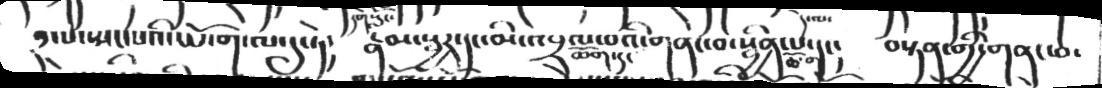༢་པ་སྤང་པའི་ཡོ་ག་ལ་དུ་ཏེ༴  རྣམ་སྦྱར་དང་མི་འབྲལ་བའི་གནང་བ་སྦྱིན་པ་དང༴   བསྟན་གྱི་གནང་བ་
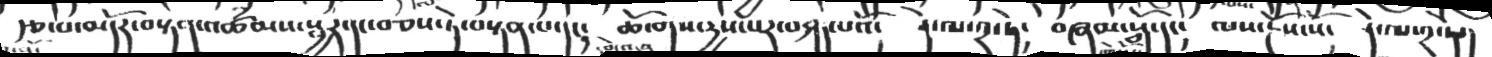རྩ་བ་མདོར་བསྟན་འཚམས་སྦྱར་དང་བཅས་ཏེ་བསྟན་པ་དང་    ཆོ་གས་རྱས་པར་བཤད་པའོ།  དེ་ལ་༢་ཏེ།  བཞམ་སྒོ་དང།  ལས་རྔོས་སོ།  དེ་ལ་༢་ཏེ་།
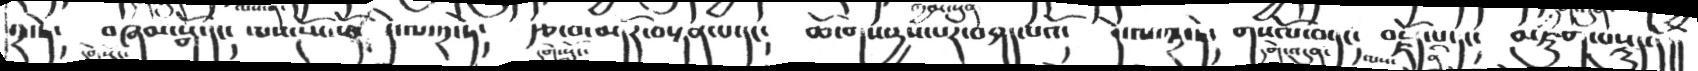༢་ཏེ།   བཞམ་སྒོ་དང།  ལས་རྔོས་སྟེ་  དེ་ལ་༢་ཏེ།  རྩ་བ་མདོར་བསྟན་པ་དང།  ཆོ་གས་རྱས་པར་བཤད་པའོ།  དེ་ལ་༣་ཏེ།   གསོལ་བ་དང།  བརྗོད་པ་དང།  མཇུག་བསྡུད་དོ།།
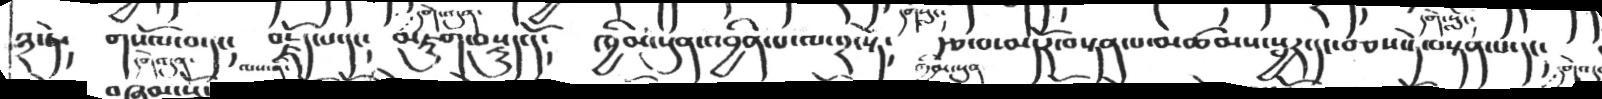༣་ཏེ༴  གསོལ་བ་དང༴  བརྗོད་པ་དང༴  མཇུག་བསྡུད་དོ༴  ཁྱིམ་སུན་འབྱིན་པ་ལ་༢་སྟེ༴  རྩ་བ་མདོར་བསྟན་པ་མཚམས་སྦྱར་དང་བཅས་ཏེ་བསྟན་པ་དང༴
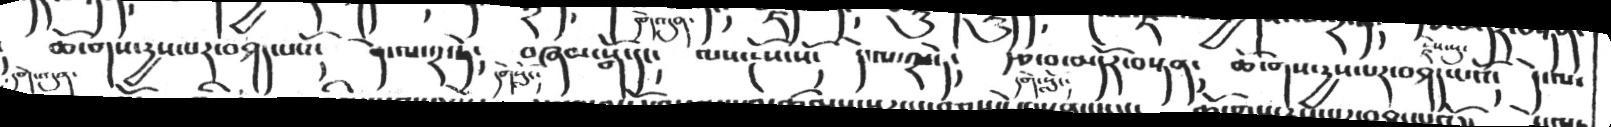ཆོ་གས་རྱས་པར་བཤད་པའོ༴  དེ་ལ་༢་ཏེ༴  བཞལ་སྒོ་དང༴་ ལས་རྔོས་སོ༴  དེ་ལ་༢་ཏེ༴  རྩ་བ་མདོར་བསྟན༴  ཆོ་གས་རྱས་པར་བཤད་པའོ༴  དེ་ལ་
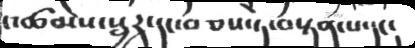མཚམས་སྦྱར་དང་བཅས་ཏེ་བསྟན་པ་དང།
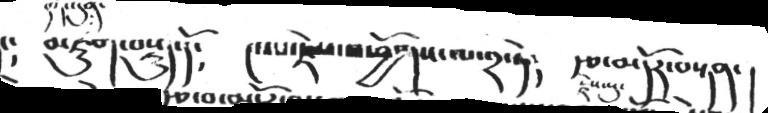ང༴  མཇུག་བསྡུད་དོ༴  ༤་པ་རྗེས་འཕྱོགས་ལ་༢་ཏེ༴  རྩ་མདོར་བསྟན་།
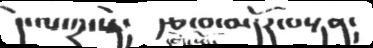དེ་ལ་༢་སྟེ༴  རྩ་བ་མདོར་བསྟན༴
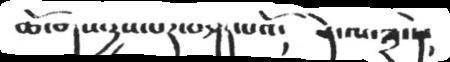ཆོ་གས་རྱས་པར་བསྟན་པའོ།  དེ་ལ་༢་སྟེ།
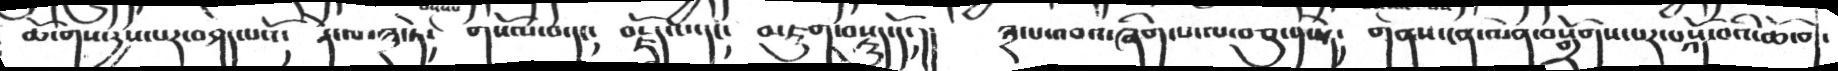ཆོ་གས་རྱས་པར་བཤད་པའོ།    དེ་ལ་༣་ཏེ།   གསོལ་བ་དང།  བརྗོད་པ་དང།  མཇུག་བསྡུད་དོ།།    ༣་པ་འབའ་ཞིག་པ་ལ་བཅུ་༡་སྟེ།  གནས་ངན་ལེན་བསྒྲོགས་པར་བསྐོ་བའི་ཆོ་ག་
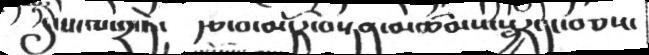དུ་ས་ལ་༢་སྟེ། རྩ་བ་མདོར་བསྟན་མཚམས་སྦྱར་དང་བཅས་
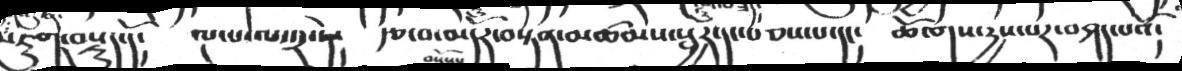མཇུག་བསྡུད་དོ།   ལྔ་པ་ལ་༢་ཏེ།   རྩ་བ་མདོར་བསྟན་མཚམས་སྦྱར་དང་བཅས་པ་དང།    ཆོ་གས་རྱས་པར་བཤད་པའོ།
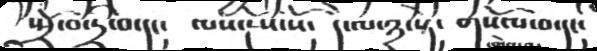སྤྲོ་བ་དྲི་བ་དང། ལས་སོ་སོ། དེ་ལ་༣་སྟེ། གསོལ་བ་དང།
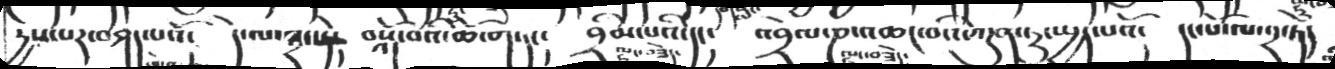རྱས་པར་བཤད་པའོ༴  དེ་ལ་༣་སྟེ༴  བསྐོ་བའི་ཆོ་ག་དང༴  བབྲིམ་པའི་དང༴  འབྲེལ་ཎ་འཆང་པའི་ཀུན་ཏུ་སྤྱད་པའོ༴  དང་པོ་ལ་༢་ཏེ།
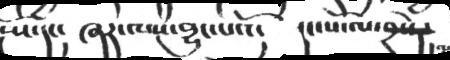དངོས་དང།  ཞར་ལས་བྱུང་པའོ། དང་པོ་ལ་༢་སྟེ།
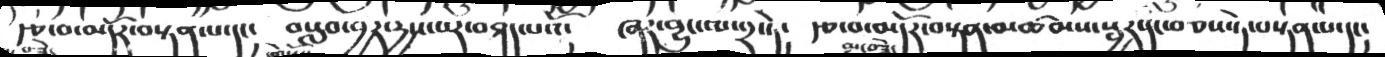རྩ་བ་མདོར་བསྟན་པ་དང༴  བསླབ་བྱར་རྱས་པར་བཤད་པའོ༴  ཞར་བྱུང་ལ་༢་ཏེ༴  རྩ་བ་མདོར་བསྟན་མཚམས་སྦྱར་དང་བཅས་སྟེ་བསྟན་པ་དང༴
